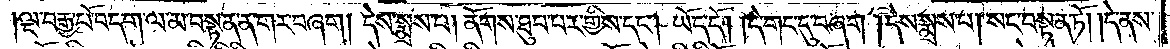ལྔ་བརྒྱ་པོ་བདག་ལ་མ་བསྟན་ན་གར་བཞག། དེས་སྨྲས་པ། ནོགས་ཐུབ་པར་གྱིས་དང༌། ཡོད་དོ། །དེ་གང་དུ་བཞག །དེས་སྨྲས་པ། སང་བསྟན་ཏོ། །དེ་ནས་
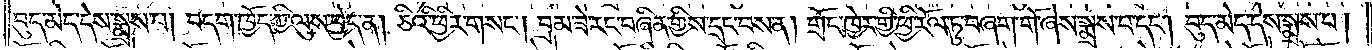བུད་མེད་དེས་སྨྲས་པ། བདག་ཁྱོད་ཀྱི་ལུས་ཕྱེད་ན། ཅིའི་ཕྱིར་གསང༌། བྲམ་ཟེ་རང་བཞིན་གྱིས་དྲང་བས་ན། གྲོང་ཁྱེར་གྱི་ཕྱི་རོལ་ཏུ་བཞག་གོ་ཞེས་སྨྲས་པ་དང༌། བུད་མེད་དེས་སྨྲས་པ།
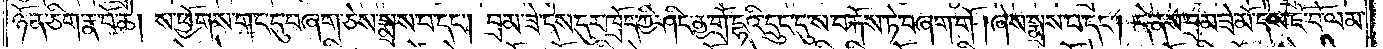ཉོན་ཅིག་རྣ་བོ་ཆེ། ས་ཕྱོགས་གང་དུ་བཞག་ཅེས་སྨྲས་པ་དང༌། བྲམ་ཟེ་དེས་དུར་ཁྲོད་ཀྱི་ཤིང་ནྱ་གྲོ་དྷའི་དྲུང་དུ་ས་བརྐོས་ཏེ་བཞག་གོ །ཞེས་སྨྲས་པ་དང༌། དེ་ནས་བྲམ་ཟེ་མོ་དེས་ཇོ་བོ་ལམ་
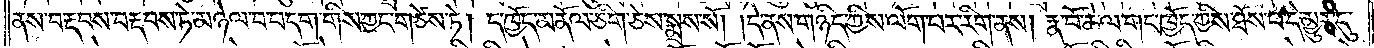ནས་བརྡབས་བརྡབས་ཏེ་མཉེལ་བ་བདག་གིས་ཀྱང་གཙེས་ཏེ། ད་ཁྱོད་མནོལ་ཅིག་ཅེས་སྨྲས་སོ། །དེ་ནས་གཉིད་ཀྱིས་ལོག་པར་རིག་ནས། རྣ་བོ་ཆེ་ལ་གང་ཁྱོད་ཀྱིས་ཐོས་པ་དེ་མྱུར་དུ་
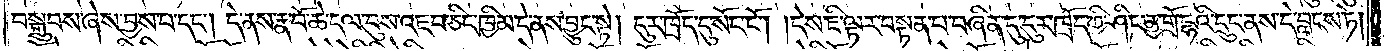བསྒྲུབས་ཞེས་བྱས་པ་དང༌། དེ་ནས་རྣ་བོ་ཆེ་དལ་བུས་འཇབ་ཅིང་ཁྱིམ་དེ་ནས་བྱུང་སྟེ། དུར་ཁྲོད་དུ་སོང་ངོ༌། །དེས་ཇི་ལྟར་བསྟན་པ་བཞིན་དུ་དུར་ཁྲོད་ཀྱི་ཤིང་ནྱ་གྲོ་དྷའི་དྲུང་ནས་དེ་བླངས་ཏེ།
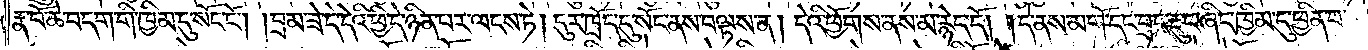རྣ་བོ་ཆེ་བདག་གི་ཁྱིམ་དུ་སོང་ངོ༌། །བྲམ་ཟེ་དེ་དེའི་ཕྱི་དེ་ཉིན་པར་ལངས་ཏེ། དུར་ཁྲོད་དུ་སོང་ནས་བལྟས་ན། དེའི་ཕྱོགས་ནས་མ་རྙེད་དོ། །དེ་ནས་མགོ་དང་བྲང་རྡུང་ཞིང་ཁྱིམ་དུ་ཕྱིན་པ་
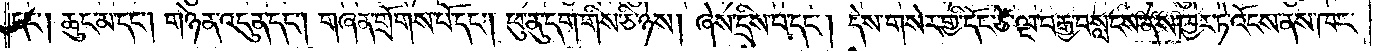དང༌། ཆུང་མ་དང༌། གཉེན་འདུན་དང༌། གཞན་གྲོགས་པོ་དང༌། ཕུ་ནུ་དག་གིས་ཅི་ཉེས། ཞེས་དྲིས་པ་དང༌། དེས་གསེར་གྱི་དོང་ཙེ་ལྔ་བརྒྱ་བསླངས་ནས་ཁྱེར་ཏེ་འོངས་ནས་ཁར་
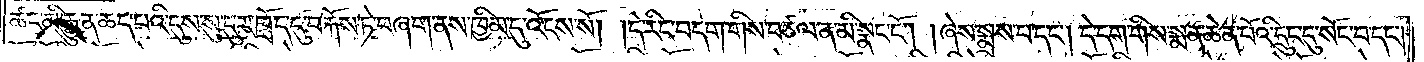ཚང་མི་རྒྱུན་ཆད་པའི་དུས་སུ་དུར་ཁྲོད་དུ་བརྐོས་ཏེ་བཞག་ནས་ཁྱིམ་དུ་འོངས་སོ། །དེ་རིང་བདག་གིས་བཙལ་ན་མི་སྣང་ངོ༌། །ཞེས་སྨྲས་པ་དང༌། དེ་དག་གིས་སྨན་ཆེན་པོའི་དྲུང་དུ་སོང་བ་དང༌།
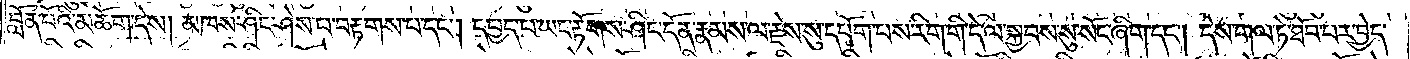བློན་པོའི་མཆོག་དེས། མཁས་ཤིང་ཤེས་པ་བརྟགས་པ་དང༌། དཔྱད་པ་ཡང་རྟོགས་ཤིང་དོན་རྣམས་ལ་རྗེས་སུ་དཔོག་པས་རིག་གི་དེ་ལ་སྐྱབས་སུ་སོང་ཞིག་དང༌། དེས་གལ་ཏེ་ཐོབ་པར་བྱེད་
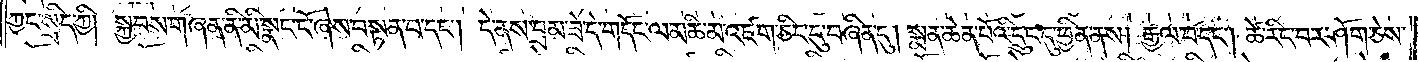ཀྱང་སྲིད་ཀྱི། སྐྱབས་གཞན་ནི་མི་སྣང་ངོ་ཞེས་བསྟན་པ་དང༌། དེ་ནས་བྲམ་ཟེ་དེ་གདོང་ལ་མཆི་མ་འཛག་ཅིང་དུ་བཞིན་དུ། སྨན་ཆེན་པོའི་དྲུང་དུ་ཕྱིན་ནས། རྒྱལ་བ་དང༌། ཚེ་རིང་བར་ཤོག་ཅེས་
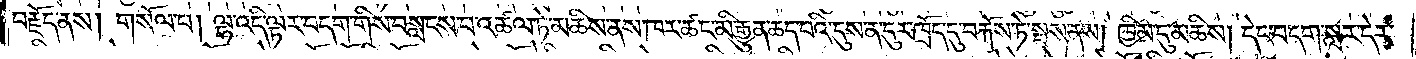བརྗོད་ནས། གསོལ་པ། ལྷ་འདི་ལྟར་བདག་གིས་བསླངས་པ་འཚལ་ཏེ་མཆིས་ནས་ཁར་ཚང་མི་རྒྱུན་ཆད་པའི་དུས་ན་དུར་ཁྲོད་དུ་བརྐོས་ཏེ་སྦས་ནས། ཁྱིམ་དུ་མཆིས། དེང་བདག་སླར་དེར་
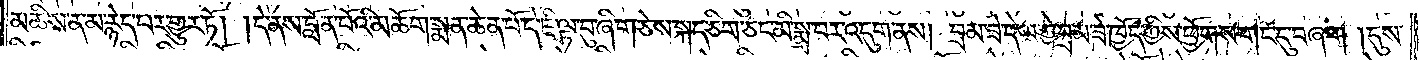མཆིས་ན་མ་རྙེད་པར་གྱུར་ཏོ། །དེ་ནས་བློན་པོའི་མཆོག་སྨན་ཆེན་པོ་དེ་ཇི་ལྟ་བུ་ཞིག་ཅེས་སྐད་ཅིག་ཅང་མི་སྨྲ་བར་འདུག་ནས། བྲམ་ཟེ་དེ་ལ་ཀྱེ་བྲམ་ཟེ་ཁྱོད་ཀྱིས་ཕྱོགས་གང་དུ་བཞག །དུས་
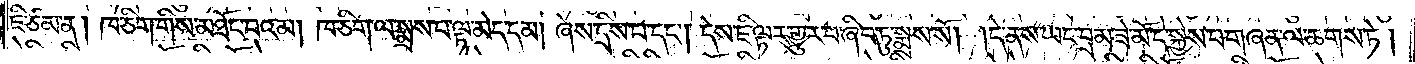ཇི་ཙམ་ན། ཁ་ཅིག་གིས་མཐོང་བའམ། ཁ་ཅིག་ལ་སྨྲས་པ་ལྟ་མེད་དམ། ཞེས་དྲིས་པ་དང༌། དེས་ཇི་ལྟར་གྱུར་བ་ཞིབ་ཏུ་སྨྲས་སོ། །དེ་ནས་ཡང་བྲམ་ཟེ་མོ་དེ་སྐྱེས་པ་གཞན་ལ་ཆགས་ཏེ།
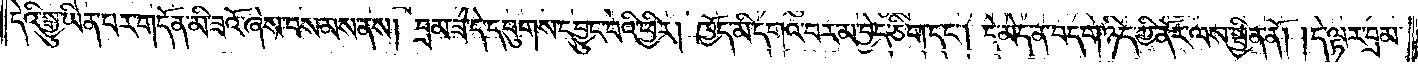དེའི་སྒྱུ་ཡིན་པར་གདོན་མི་ཟའོ་ཞེས་བསམས་ནས། བྲམ་ཟེ་དེ་དབུགས་དབྱུང་བའི་ཕྱིར། ཁྱོད་མི་དགའ་བར་མ་བྱེད་ཅིག་དང༌། དེ་མེད་ན་བདག་ཉིད་ཀྱི་ནོར་ལས་སྦྱིན་ནོ། །དེ་ལྟར་བྲམ་
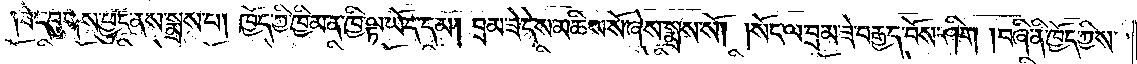ཟེ་དབུགས་ཕྱུང་ནས་སྨྲས་པ། ཁྱོད་ཀྱི་ཁྱིམ་ན་ཁྱི་ལྟ་ཡོད་དམ། བྲམ་ཟེ་དེས་མཆིས་སོ་ཞེས་སྨྲས་སོ། །སོང་ལ་བྲམ་ཟེ་བརྒྱད་བོས་ཤིག །བཞི་ནི་ཁྱོད་ཀྱིས་
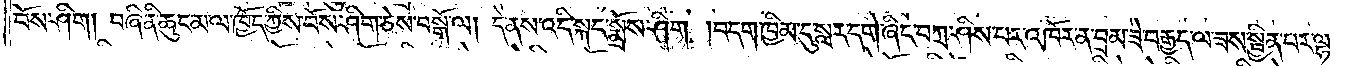བོས་ཤིག། བཞི་ནི་ཆུང་མ་ལ་ཁྱོད་ཀྱིས་བོས་ཤིག་ཅེས་བསྒོ་ལ། དེ་ནས་འདི་སྐད་སྨྲོས་ཤིག །བདག་ཁྱིམ་དུ་སླར་དགེ་ཞིང་བཀྲ་ཤིས་པར་འཁོར་ན་བྲམ་ཟེ་བརྒྱད་ལ་ཟས་སྦྱིན་པར་ལྷ་
